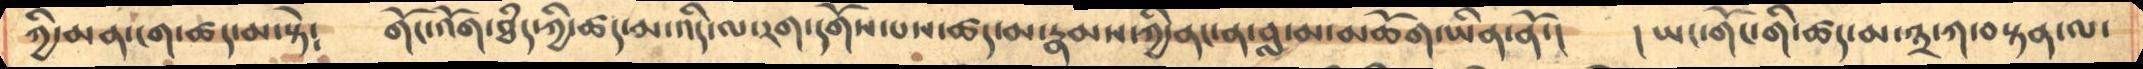ཀྱི་མན་ངག་ཚད་མ་སྟེ༴   གོང་འོག་ཐཾད་ཀྱི་ཚད་མ་འདི་ལ་རག་དགོས་པས་ཚད་མ་རྣམས་ཀྱི་ནང་ན་བླ་མ་མཆོག་ཡིན་ནོ་།   །ཡང་གོང་གི་ཚད་མ་༣་ཀ་བསྟན་ལ་
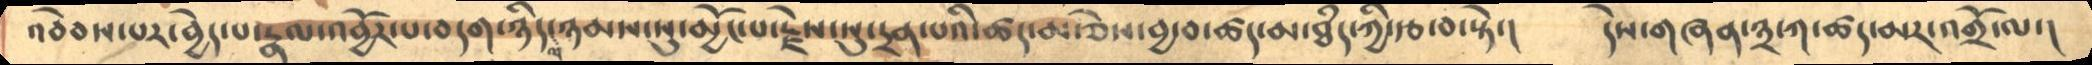འབེབས་པར་བྱེད་པ་རྣལ་འབྱོར་པ་བདག་ཉིད་ལ་ཉམས་སུ་མྱོང་པ་རྗེས་སུ་དྲན་པའི་ཚད་མ་ཅེས་བྱ་བ་ཚད་མ་ཐཾད་ཀྱི་རྩ་བ་སྟེ་།    དེས་གཞན་༣་ཀ་ཚད་མར་འགྲོ་ལ་།
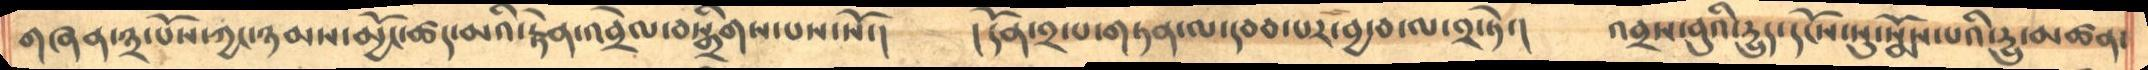གཞན་༣་པོས་ཀྱང་ཉམས་མྱོང་ཚད་མའི་རྟེན་འབྲེལ་བསྒྲིགས་པས་སོ་།    །དོན་༢་པ་གཏན་ལ་དབབ་པར་བྱ་བ་ལ་༢་ཏེ་།   འབྲས་བུའི་དྱུད་དངོས་སུ་སྨོས་པའི་དྱུ་མཚན་
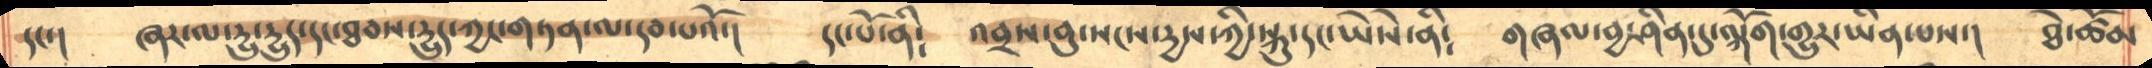དང་།   ཞར་ལ་དྱུ་དྱུད་དང་ཐབས་དྱུད་ཀྱང་གཏན་ལ་དབ་པའོ་།    དང་པོ་ནི༴   འབྲས་བུ་སངས་དྱས་ཀྱི་སྐུ་དང་ཡེསེས་ནི༴   གཞལ་བྱ་ཤིན་དུ་ལྐོག་གྱུར་ཡིན་པས་།   ཐེ་ཚོམ
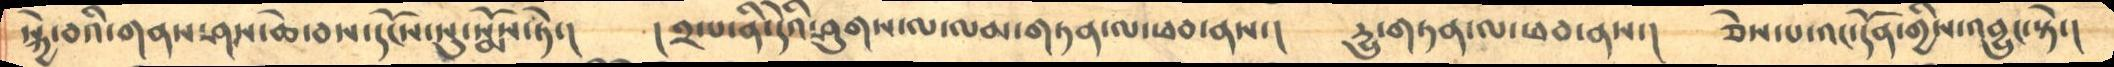སྐྱེ་བའི་གནས་ཤས་ཆེ་བས་དངོས་སུ་སྨོས་ཏེ་།    །༢་པ་ནི་དེའི་ཤུགས་ལ་ལམ་གཏན་ལ་ཕབ་ནས་།    དྱུ་གཏན་ལ་ཕབ་ནས་།   ཅེས་པ་འང་དོན་གྱིས་འབྱུང་སྟེ་།
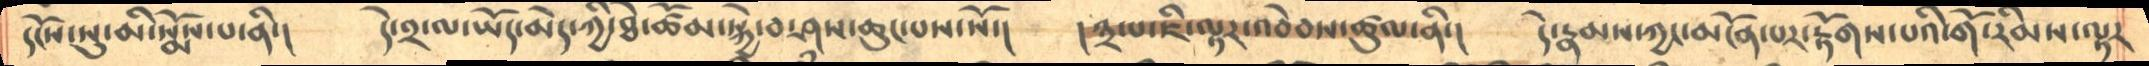དངོས་སུ་མི་སྨོས་པ་ནི་།    དེ་༢་ལ་ཡོད་མེད་ཀྱི་ཐེ་ཚོམ་སྐྱེ་བ་ཤས་ཆུང་པས་སོ་།   །༣་པ་ཇི་ལྟར་འབེབས་ཚུལ་ནི་།   དེ་རྣམས་ཀྱང་མངོན་པར་རྟོགས་པའི་གོ་རིམས་ལྟར
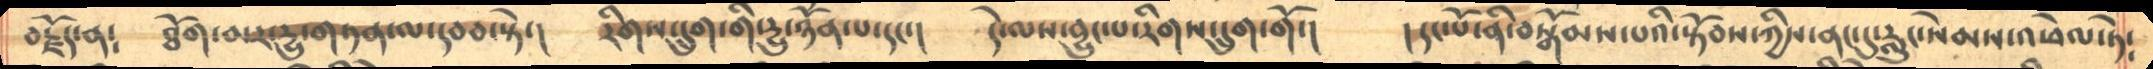བརྗོད་ན༴   ཐོག་མར་དྱུ་གཏན་ལ་དབབ་སྟེ་།   རིགས་དྲུག་གི་དྱུ་ཉོཾན་པ་དང་།   དེ་ལས་བྱུང་པ་རིགས་དྲུག་གོ་།  །དང་པོ་ནི་བསྒོམས་པའི་སྟོབས་ཀྱིས་ནང་དུ་རླུང་སེམས་འཕེལ་ཏེ༴
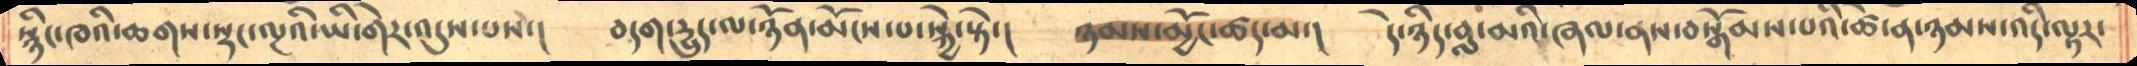སྙིང་ཁའི་ཆགས་སྡང་ལྔའི་ཡི་གེར་འདུས་པས་།   བདག་དྱུད་ལ་ཉོན་མོངས་པ་སྐྱེ་སྟེ་།   ཉམས་མྱོང་ཚད་མ་།   དེ་ཉིད་བླ་མའི་ཞལ་ནས་བསྒོམས་པའི་ཚེ་ན་ཉམས་འདི་ལྟར་
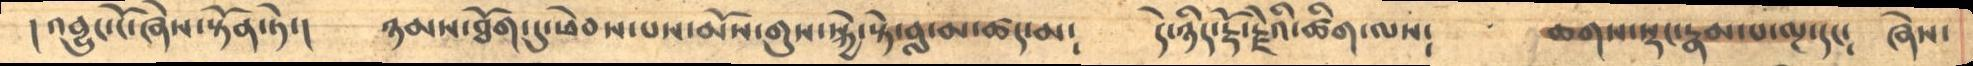།འབྱུང་ངོ་ཞེས་སྟོན་ཏེ་།    ཉམས་ཐོག་དུ་ཕེབས་པས་མོས་གུས་སྐྱེ་སྟེ་བླ་མ་ཚད་མ༴     དེ་ཉིད་རྡོ་རྗེའི་ཚིག་ལས༴    ཆགས་སྟང་རྣམ་པ་ལྔ་དང༴   ཞེས་
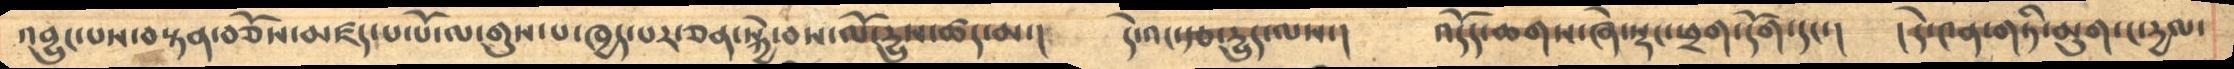འབྱུང་པས་བསྟན་བཅོས་མཛད་པ་པོ་ལ་གུས་པ་ཁྱད་པར་ཅན་སྐྱེ་བས་ལོ་དྱུས་ཚད་མ་།   དེ་འང་རྩ་དྱུད་ལས་།   འདོད་ཆགས་ཞེ་སྡང་ཕྲག་དོག་དང་།  །དེ་༤ན་གཏི་མུག་ང་དྱལ་
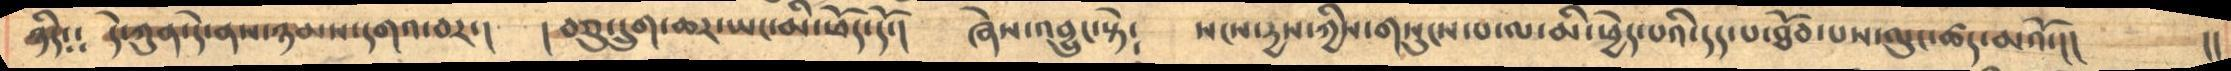ཉིད༴༴   དེ་ཀུན་དེ་ནས་ཉམས་དགའ་བར་།    ། བཅུ་དྲུག་ཆར་ཡང་མི་ཕོད་དོ་།   ཞེས་འབྱུང་སྟེ༴    སངས་དྱས་ཀྱིས་གསུངས་པ་ལ་མི་ཕྱེད་པའི་དད་པ་ཐོབ་པས་ལུང་ཚད་མའོ་།།    །།
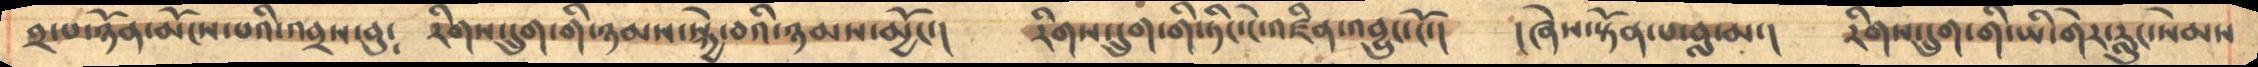༢་པ་ཉོན་མོངས་པའི་འབྲས་བུ༴   རིགས་དྲུག་གི་ཉམས་སྐྱེ་བའི་ཉམས་མྱོང་།    རིགས་དྲུག་གི་ཏིང་ངེ་འཛིན་འབྱུང་ངོ་།   །ཞེས་སྟོན་པ་བླ་མ་།  རིགས་དྲུག་གི་ཡི་གེར་རླུང་སེམས
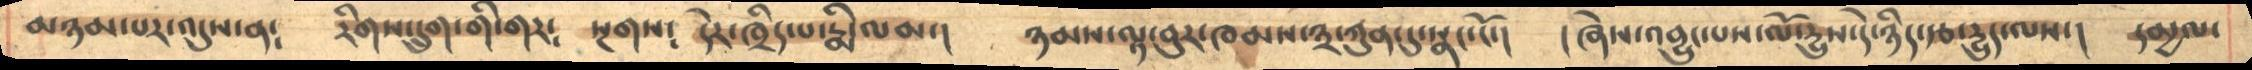མཉམ་པར་འདུས་ན༴    རིགས་དྲུག་གི་གར༴   སྔགས༴  དེར་ཁྲིད་པ་རྨི་ལམ་།   ཉམས་ལྟ་བུར་ཁམས་༣་ཀུན་དུ་སྣང་ངོ་།   །ཞེས་འབྱུང་པས་ལོ་དྱུས་དེ་ཉིད་རྩ་དྱུད་ལས་།   དམྱལ་
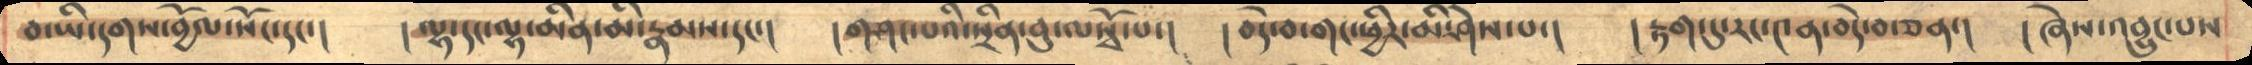བ་ཡི་དགས་བྱོལ་སོང་དང་།   །ལྷ་དང་ལྷ་མིན་མི་རྣམས་དང་།   །གཤང་པའི་སྲིན་བུ་ལསྭོ་པ་།   །བདེ་བ་གང་ཕྱིར་མི་ཤེས་པ་།   །རྟག་དུ་རང་༤ན་བདེ་བ་ཅན་།   །ཞེས་འབྱུང་པས
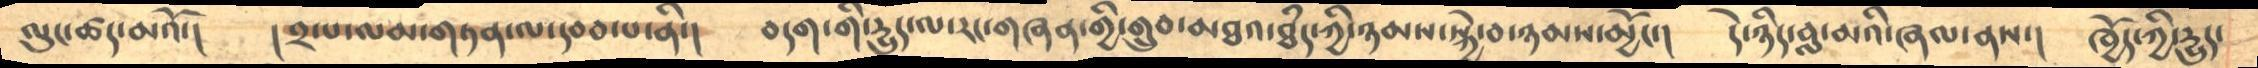ལུང་ཚད་མའོ་།   །༢་པ་ལམ་གཏན་ལ་དབབ་པ་ནི་།   བདག་གི་དྱུད་ལ་རང་གཞན་གྱི་གྲུབ་མཐའ་ཐྃད་ཀྱི་ཉམས་སྐྱེ་བ་ཉམས་མྱོང་།   དེ་ཉིད་བླ་མའི་ཞལ་ནས་།   ཁྱོད་ཀྱི་དྱུད་
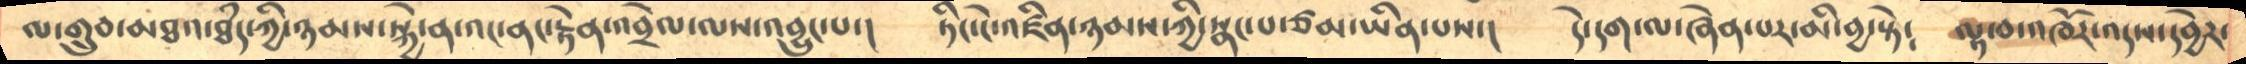ལ་གྲུབ་མཐའ་ཐྃད་ཀྱི་ཉམས་སྐྱེ་ན་འང་ནང་རྟེན་འབྲེལ་ལས་འབྱུང་པ་།   ཏིང་ངེ་འཛིན་ཉམས་ཀྱི་སྣང་པ་ཙམ་ཡིན་པས་།    དེ་དག་ལ་ཞེན་པར་མི་བྱ་སྟེ༴    ལྟ་བ་འཁོར་འདས་དབྱེར་
